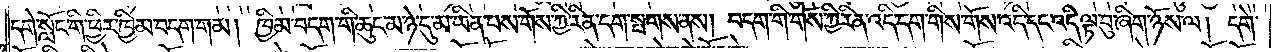དགེ་སློང་གི་ཕྱིར་ཁྱིམ་བདག་གམ། ཁྱིམ་བདག་གི་ཆུང་མ་ཉེ་དུ་མ་ཡིན་པས་གོས་ཀྱི་རིན་དག་སྤགས་ནས། བདག་གི་གོས་ཀྱི་རིན་འདི་དག་གིས་གོས་འདི་དང་འདི་ལྟ་བུ་ཞིག་ཉོས་ལ། དགེ་
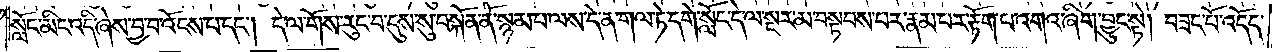སློང་མིང་འདི་ཞེས་བྱ་བ་འོངས་པ་དང༌། དེ་ལ་གོས་རུང་བ་དུས་སུ་བསྐོན་ནོ་སྙམ་པ་ལས་དེ་ན་གལ་ཏེ་དགེ་སློང་དེ་ལ་སྔར་མ་བསྟབས་པར་རྣམ་པར་རྟོག་པ་འགའ་ཞིག་བྱུང་སྟེ། བཟང་པོ་འདོད་
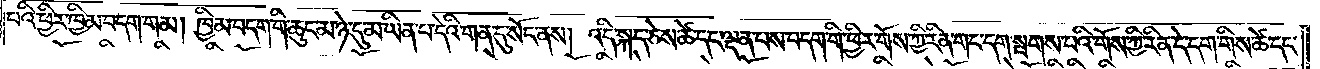པའི་ཕྱིར་ཁྱིམ་བདག་གམ། ཁྱིམ་བདག་གི་ཆུང་མ་ཉེ་དུ་མ་ཡིན་པ་དེའི་གན་དུ་སོང་ནས། འདི་སྐད་ཅེས་ཚེ་དང་ལྡན་པས་བདག་གི་ཕྱིར་གོས་ཀྱི་རིན་གང་དག་སྤགས་པའི་གོས་ཀྱི་རིན་དེ་དག་གིས་ཚེ་དང་
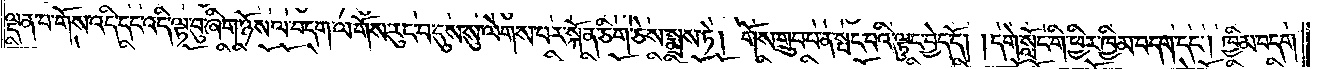ལྡན་པ་གོས་འདི་དང་འདི་ལྟ་བུ་ཞིག་ཉོས་ལ་བདག་ལ་གོས་རུང་བ་དུས་སུ་ལེགས་པར་སྐོན་ཅིག་ཅེས་སྨྲས་ཏེ། གོས་གྲུབ་པ་ན་སྤང་བའི་ལྟུང་བྱེད་དོ། །དགེ་སློང་གི་ཕྱིར་ཁྱིམ་བདག་དང༌། ཁྱིམ་བདག་
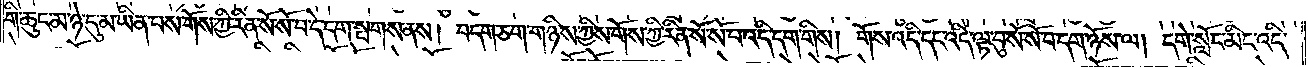གི་ཆུང་མ་ཉེ་དུ་མ་ཡིན་པས་གོས་ཀྱི་རིན་སོ་སོ་བ་དེ་དག་སྤགས་ནས། བདག་ཅག་གཉིས་ཀྱིས་གོས་ཀྱི་རིན་སོ་སོ་བ་འདི་དག་གིས། གོས་འདི་དང་འདི་ལྟ་བུ་སོ་སོ་བདག་ཉོས་ལ། དགེ་སློང་མིང་འདི་
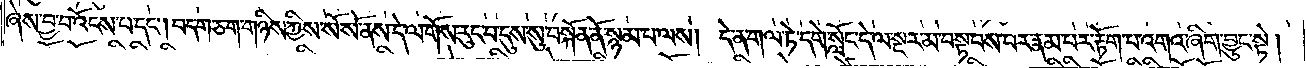ཞེས་བྱ་བ་འོངས་པ་དང༌། བདག་ཅག་གཉིས་ཀྱིས་སོ་སོ་ནས་དེ་ལ་གོས་རུང་བ་དུས་སུ་བསྐོན་ནོ་སྙམ་པ་ལས། དེ་ན་གལ་ཏེ་དགེ་སློང་དེ་ལ་སྔར་མ་བསྟབས་པར་རྣམ་པར་རྟོག་པ་འགའ་ཞིག་བྱུང་སྟེ།
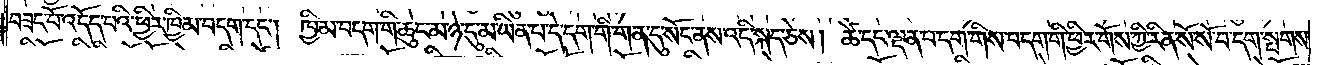བཟང་པོ་འདོད་པའི་ཕྱིར་ཁྱིམ་བདག་དང༌། ཁྱིམ་བདག་གི་ཆུང་མ་ཉེ་དུ་མ་ཡིན་པ་དེ་དག་གི་གན་དུ་སོང་ནས་འདི་སྐད་ཅེས། ཚེ་དང་ལྡན་པ་དག་གིས་བདག་གི་ཕྱིར་གོས་ཀྱི་རིན་སོ་སོ་བ་དག་སྤགས་
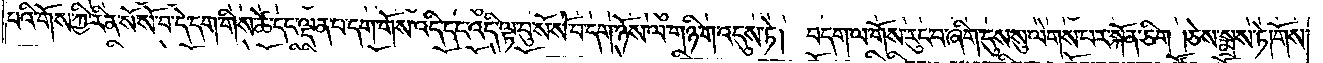པའི་གོས་ཀྱི་རིན་སོ་སོ་བ་དེ་དག་གིས་ཚེ་དང་ལྡན་པ་དག་གོས་འདི་དང་འདི་ལྟ་བུ་སོ་སོ་བ་དག་ཉོས་ལ་གཉི་ག་འདུས་ཏེ། བདག་ལ་གོས་རུང་བ་ཞིག་དུས་སུ་ལེགས་པར་སྐོན་ཅིག །ཅེས་སྨྲས་ཏེ། གོས་
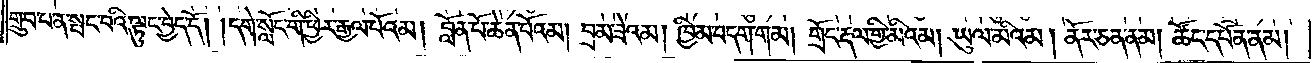གྲུབ་པ་ན་སྤང་བའི་ལྟུང་བྱེད་དོ། །དགེ་སློང་གི་ཕྱིར་རྒྱལ་པོའམ། བློན་པོ་ཆེན་པོའམ། བྲམ་ཟེའམ། ཁྱིམ་བདག་གམ། གྲོང་རྡལ་གྱི་མིའམ། ཡུལ་མིའམ། ནོར་ཅན་ནམ། ཚོང་དཔོན་ནམ།
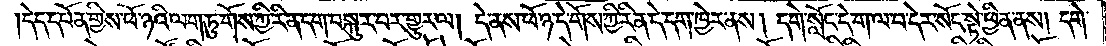དེད་དཔོན་གྱིས་ཕོ་ཉའི་ལག་ཏུ་གོས་ཀྱི་རིན་དག་བསྐུར་བར་གྱུར་ལ། དེ་ནས་ཕོ་ཉ་དེ་གོས་ཀྱི་རིན་དེ་དག་ཁྱེར་ནས། དགེ་སློང་དེ་ག་ལ་བ་དེར་སོང་སྟེ་ཕྱིན་ནས། དགེ་
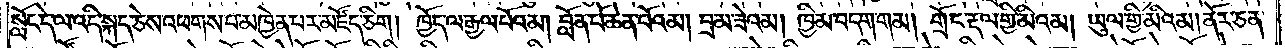སློང་དེ་ལ་འདི་སྐད་ཅེས་འཕགས་པ་མཁྱེན་པར་མཛོད་ཅིག། ཁྱོད་ལ་རྒྱལ་པོའམ། བློན་པོ་ཆེན་པོའམ། བྲམ་ཟེའམ། ཁྱིམ་བདག་གམ། གྲོང་རྡལ་གྱི་མིའམ། ཡུལ་གྱི་མིའམ། ནོར་ཅན་
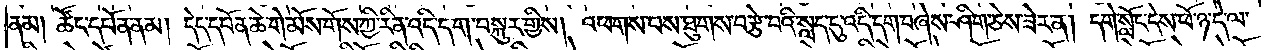ནམ། ཚོང་དཔོན་ནམ། དེད་དཔོན་ཆེ་གེ་མོས་གོས་ཀྱི་རིན་འདི་དག་བསྐུར་གྱིས། འཕགས་པས་ཐུགས་བརྩེ་བའི་སླད་དུ་འདི་དག་བཞེས་ཤིག་ཅེས་ཟེར་ན། དགེ་སློང་དེས་ཕོ་ཉ་དེ་ལ་
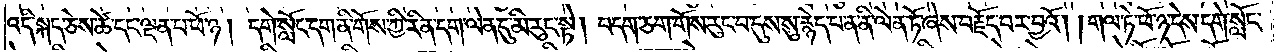འདི་སྐད་ཅེས་ཚེ་དང་ལྡན་པ་ཕོ་ཉ། དགེ་སློང་དག་ནི་གོས་ཀྱི་རིན་དག་ལེན་དུ་མི་རུང་སྟེ། བདག་ཅག་གོས་རུང་བ་དུས་སུ་རྙེད་པ་ན་ནི་ལེན་ཏོ་ཞེས་བརྗོད་པར་བྱའོ། །གལ་ཏེ་ཕོ་ཉ་དེས་དགེ་སློང་
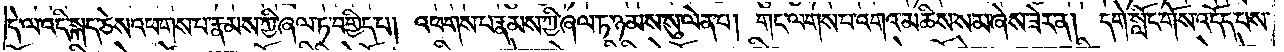དེ་ལ་འདི་སྐད་ཅེས་འཕགས་པ་རྣམས་ཀྱི་ཞལ་ཏ་བགྱིད་པ། འཕགས་པ་རྣམས་ཀྱི་ཞལ་ཏ་ཉམས་སུ་ལེན་པ། གང་ལགས་པ་འགའ་མཆིས་སམ་ཞེས་ཟེར་ན། དགེ་སློང་གོས་འདོད་པས་
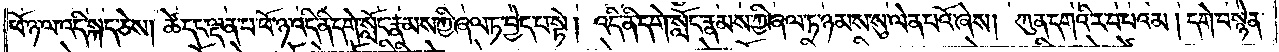ཕོ་ཉ་ལ་འདི་སྐད་ཅེས། ཚེ་དང་ལྡན་པ་ཕོ་ཉ་འདི་ནི་དགེ་སློང་རྣམས་ཀྱི་ཞལ་ཏ་བྱེད་པ་སྟེ། འདི་ནི་དགེ་སློང་རྣམས་ཀྱི་ཞལ་ཏ་ཉམས་སུ་ལེན་པའོ་ཞེས། ཀུན་དགའི་ར་བ་པའམ། དགེ་བསྙེན་
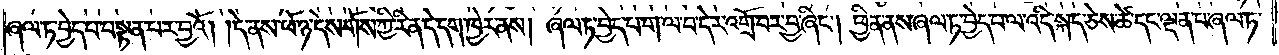ཞལ་ཏ་བྱེད་པ་བསྟན་པར་བྱའོ། །དེ་ནས་ཕོ་ཉ་དེས་གོས་ཀྱི་རིན་དེ་དག་ཁྱིར་ནས། ཞལ་ཏ་བྱེད་པ་ག་ལ་བ་དེར་འགྲོ་བར་བྱ་ཞིང༌། ཕྱིན་ནས་ཞལ་ཏ་བྱེད་པ་ལ་འདི་སྐད་ཅེས་ཚེས་དང་ལྡན་པ་ཞལ་ཏ་
